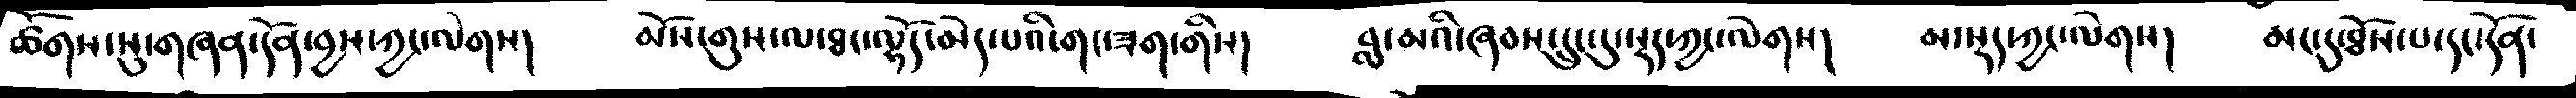ཚོགས་སུ་གཞཉ་དོན་བྱས་ཀྱང་ལེགས།  མོས་གུས་ལ་ཐང་ལྷོད་མེད་པའི་གང་ཟག་གིས།  བླ་མའི་ཞབས་དྲུང་དུ་སྡད་ཀྱང་ལེགས།  མ་སྡད་ཀྱང་ལེགས།  མང་དུ་ཐོས་པ་དང་དོན་
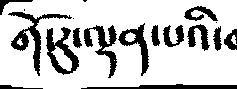གོ་རུ་ལྡན་པའི་
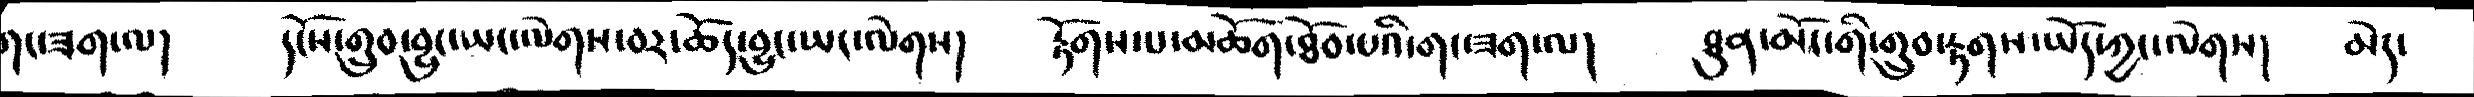གང་ཟག་ལ།  དངོས་གྲུབ་བྱུང་ཡང་ལེགས་བར་ཆོད་བྱུང་ཡང་ལེགས།  རྟོགས་པ་མཆོག་ཐོབ་པའི་གང་ཟག་ལ།    ཐུན་མོང་གི་གྲུབ་རྟགས་ཡོད་ཀྱང་ལེགས།  མེད་
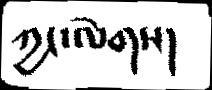ཀྱང་ལེགས།
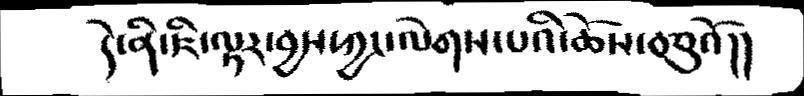དེ་ནི་ཇི་ལྟར་བྱས་ཀྱང་ལེགས་པའི་ཆོས་བཅུའོ།།
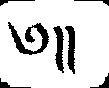༅།།
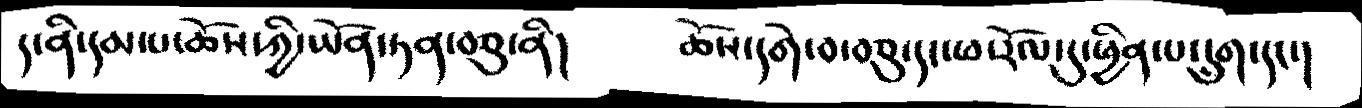ད་ནི་དམ་པ་ཆོས་ཀྱི་ཡོན་ཏན་བཅི་ནི།  ཆོས་དགེ་བ་བཅུ་དང་ཕ་རོལ་དུ་ཕྱིན་པ་དྲུག་དང་།
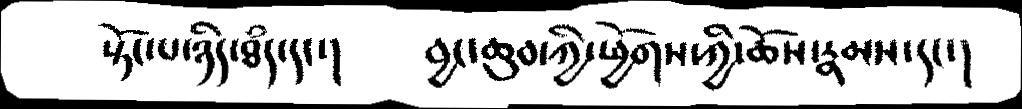སྟོང་པ་ཉིད་ཐཾད་དང་།   བྱང་ཆུབ་ཀྱི་ཕྱོགས་ཀྱི་ཆོས་རྣམས་དང་།
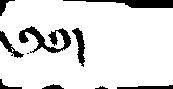༄༅།
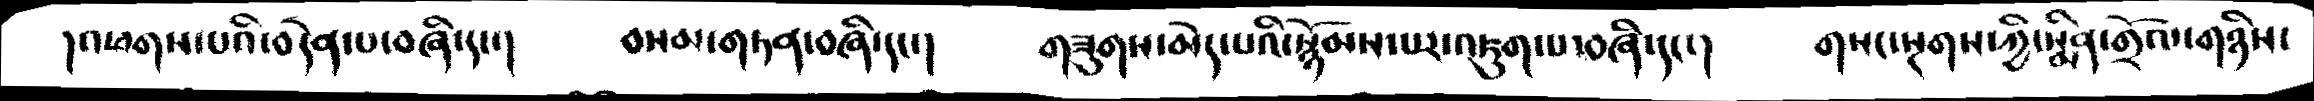།འཕགས་པའི་བདེན་པ་བཞི་དང་།    བསམ་གཏན་བཞི་དང་།    གཟུགས་མེད་པའི་སྙོམས་པར་འཇུག་པ་བཞི་དང་།    གསང་སྔགས་ཀྱི་སྨིན་གྲོལ་གཉིས་
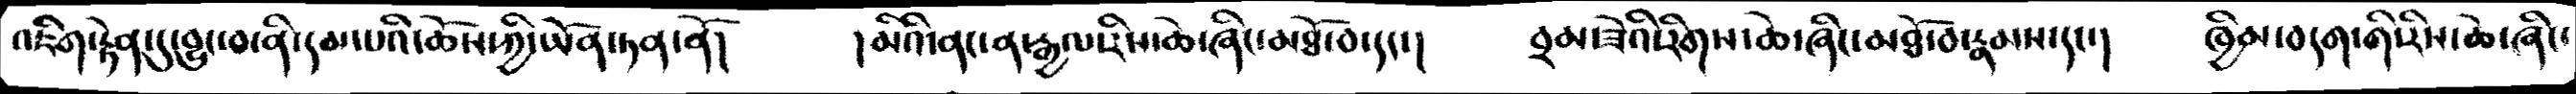འཇིག་རྟེན་དུ་བྱུང་བ་ནི་དམ་པའི་ཆོས་ཀྱི་ཡོན་ཏན་ནོ།    །མིའི་ནང་ན་རྒྱལ་རིས་ཆེ་ཞིང་མཐོ་བ་དང་།   བྲམ་ཟེའི་རིགས་ཆེ་ཞིང་མཐོ་བ་རྣམས་དང་།  ཁྱིམ་བདག་གི་རིས་ཆེ་ཞིང་།
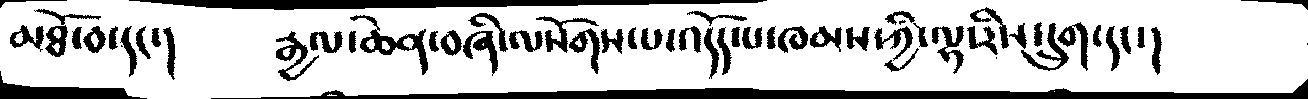མཐོ་བ་དང་།    རྒྱལ་ཆེན་བཞི་ལསོགས་པ་འདོད་པ་ཁམས་ཀྱི་ལྷ་རིས་དྲུག་དང་།
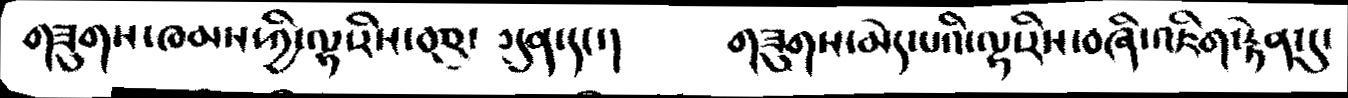གཟུགས་ཁམས་ཀྱི་ལྷ་རིས་བཅུ་བདུན་དང་།    གཟུགས་མེད་པའི་ལྷ་རིས་བཞི་འཇིག་རྟེན་དུ་
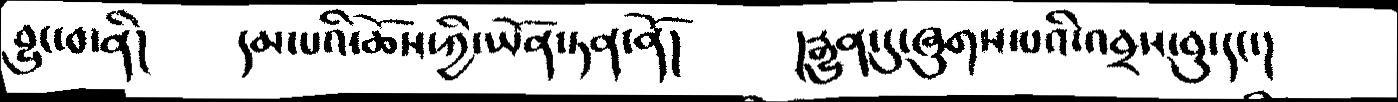བྱུང་བ་ནི།   དམ་པའི་ཆོས་ཀྱི་ཡོན་ཏན་ནོ།    །རྒྱུན་དུ་ཞུགས་པའི་འབྲས་བུ་དང་།
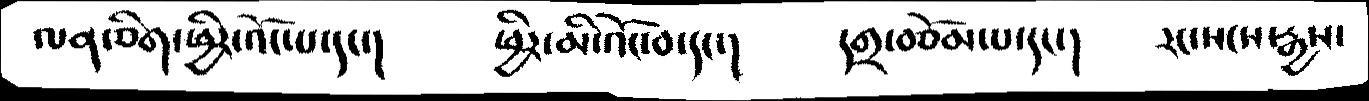ལན་ཅིག་ཕྱིར་འོང་པ་དང་།  ཕྱིར་མི་འོང་བ་དང་།  དགྲ་བཅོམ་པ་དང་།   རང་སངས་རྒྱས་
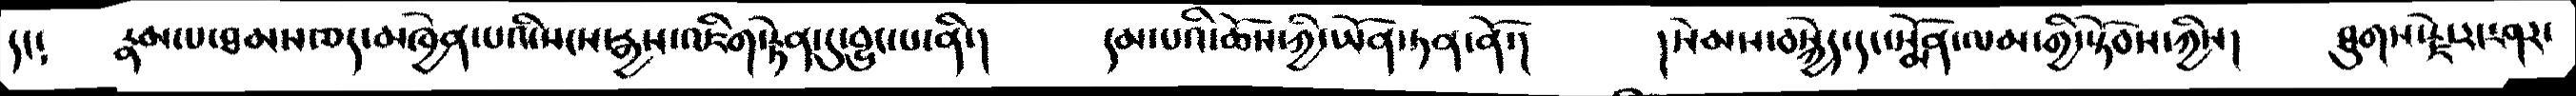དང༴  རྣམ་པ་ཐམས་ཅད་མཁྱེན་པའི་སངས་རྒྱས་འཇིག་རྟེན་དུ་བྱུང་པ་ནི་།  དམ་པའི་ཆོས་ཀྱི་ཡོན་ཏན་ནོ་།  །སེམས་བསྐྱེད་དང་སྨོན་ལམ་གྱི་སྟོབས་ཀྱིས།  ཐུགས་རྗེ་རང་ཤར་
